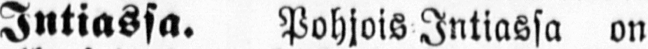Intiassa. Pohjois Intiassa on
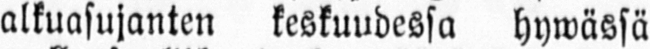alkuasujanten keskuudessa hywässä
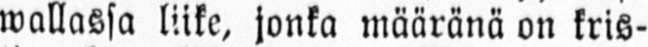wallassa liike, jonka määränä on kris-
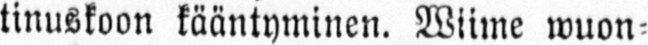tinuskoon kääntyminen. Wiime wuon-
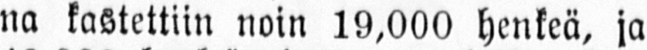na kastettiin noin 19,000 henkeä, ja
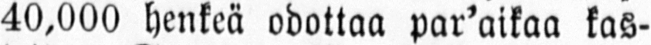40,000 henkeä odottaa par ’ aikaa kas-
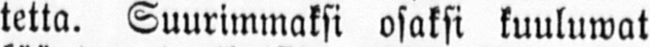tetta. Suurimmaksi osaksi kuuluwat
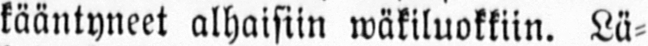kääntyneet alhaisiin wäkiluokkiin. Lä-
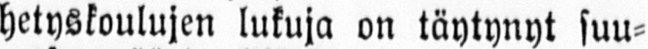hetyskoulujen lukuja on täytynyt suu-
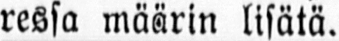ressa määrin lisätä.
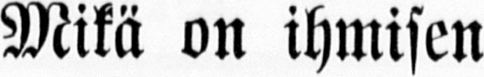Mikä on ihmisen
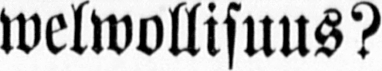welwollisuus?
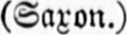(Saxon.)
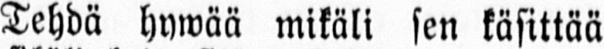Tehdä hywää mikäli sen käsittää
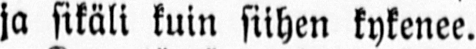ja sikäli kuin siihen kykenee.
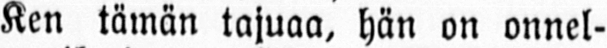Ken tämän tajuaa, hän on onnel-
